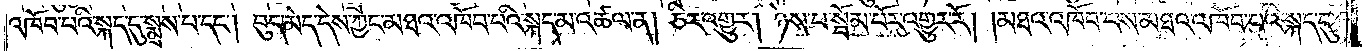འཁོབ་པའི་སྐད་དུ་སྨྲས་པ་དང༌། བུད་མེད་དེས་ཀྱང་མཐའ་འཁོབ་པའི་སྐད་མ་འཚལ་ན། ཅིར་འགྱུར། ཉེས་པ་སྦོམ་པོར་འགྱུར་རོ། །མཐའ་འཁོབ་པས་མཐའ་འཁོབ་པའི་སྐད་དུ་
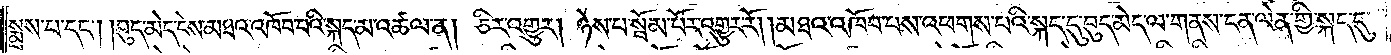སྨྲས་པ་དང༌། བུད་མེད་ངེས་མཐའ་འཁོབ་པའི་སྐད་མ་འཚལ་ན། ཅིར་འགྱུར། ཉེས་པ་སྦོམ་པོར་འགྱུར་རོ། །མཐའ་འཁོབ་པས་འཕགས་པའི་སྐད་དུ་བུད་མེད་ལ་གནས་ངན་ལེན་གྱི་སྐད་དུ་
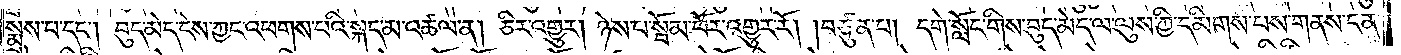སྨྲས་པ་དང༌། བུད་མེད་ངེས་ཀྱང་འཕགས་པའི་སྐད་མ་འཚལ་ན། ཅིར་འགྱུར། ཉེས་པ་སྦོམ་པོར་འགྱུར་རོ། །བཙུན་པ། དགེ་སློང་གིས་བུད་མེད་ལ་ལུས་ཀྱི་དམིགས་པས་གནས་ངན་
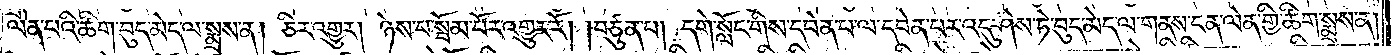ལེན་པའི་ཚིག་བུད་མེད་ལ་སྨྲས་ན། ཅིར་འགྱུར། ཉེས་པ་སྦོམ་པོར་འགྱུར་རོ། །བཙུན་པ། དགེ་སློང་གིས་དབེན་པ་ལ་དབེན་པར་འདུ་ཤེས་ཏེ་བུད་མེད་ལ་གནས་ངན་ལེན་གྱི་ཚིག་སྨྲས་ན།
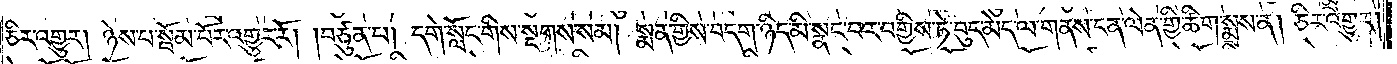ཅིར་འགྱུར། ཉེས་པ་སྦོམ་པོར་འགྱུར་རོ། །བཙུན་པ། དགེ་སློང་གིས་སྔགས་སམ། སྨན་གྱིས་བདག་ཉིད་མི་སྣང་བར་བགྱིས་ཏེ་བུད་མེད་ལ་གནས་ངན་ལེན་གྱི་ཚིག་སྨྲས་ན། ཅིར་འགྱུར་
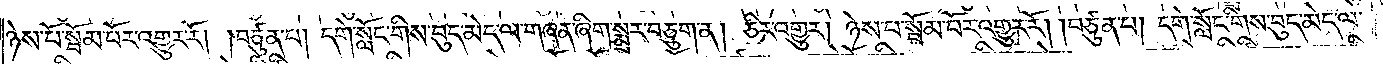ཉེས་པོ་སྦོམ་པོར་འགྱུར་རོ། །བཙུན་པ། དགེ་སློང་གིས་བུད་མེད་ལ་གཞན་ཞིག་སྨྲར་བཅུག་ན། ཅིར་འགྱུར། ཉེས་པ་སྦོམ་པོར་འགྱུར་རོ། །བཙུན་པ། དགེ་སློང་གིས་བུད་མེད་ལ་
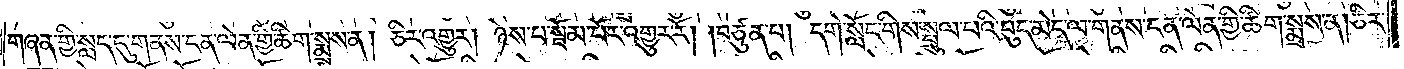གཞན་གྱི་སླད་དུ་གནས་ངན་ལེན་གྱི་ཚིག་སྨྲས་ན། ཅིར་འགྱུར། ཉེས་པ་སྦོམ་པོར་འགྱུར་རོ། །བཙུན་པ། དགེ་སློང་གིས་སྤྲུལ་པའི་བུད་མེད་ལ་གནས་ངན་ལེན་གྱི་ཚིག་སྨྲས་ན། ཅིར་
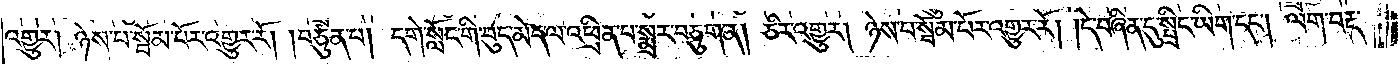འགྱུར། ཉེས་པ་སྦོམ་པོར་འགྱུར་རོ། །བཙུན་པ། དགེ་སློང་གི་བུད་མེད་ལ་འཕྲིན་པ་སྨྲར་བཅུག་ན། ཅིར་འགྱུར། ཉེས་པ་སྦོམ་པོར་འགྱུར་རོ། །དེ་བཞིན་དུ་སྤྲིང་ཡིག་དང༌། ལག་བརྡ་
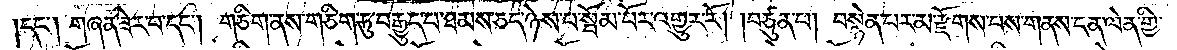དང༌། གཞན་ཟེར་བ་དང༌། གཅིག་ནས་གཅིག་ཏུ་བརྒྱུད་པ་ཐམས་ཅད་ཉེས་པ་སྦོམ་པོར་འགྱུར་རོ། །བཙུན་པ། བསྙེན་པར་མ་རྫོགས་པས་གནས་ངན་ལེན་གྱི་
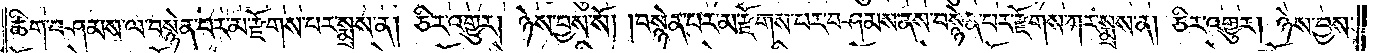ཚིག་བཤམས་ལ་བསྙེན་པར་མ་རྫོགས་པར་སྨྲས་ན། ཅིར་འགྱུར། ཉེས་བྱས་སོ། །བསྙེན་པར་མ་རྫོགས་པར་བཤམས་ནས་བསྙེན་པར་རྫོགས་ཀར་སྨྲས་ན། ཅིར་འགྱུར། ཉེས་བྱས་
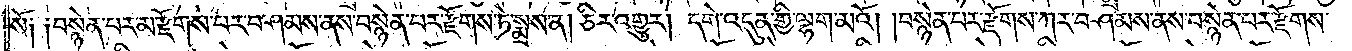སོ༑ ༑བསྙེན་པར་མ་རྫོགས་པར་བཤམས་ནས་བསྙེན་པར་རྫོགས་ཏེ་སྨྲས་ན། ཅིར་འགྱུར། དགེ་འདུན་གྱི་ལྷག་མའོ། །བསྙེན་པར་རྫོགས་ཀར་བཤམས་ནས་བསྙེན་པར་རྫོགས་
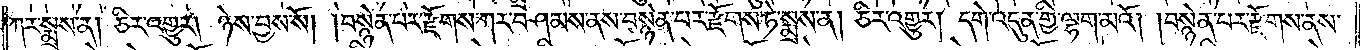ཀར་སྨྲས་ན། ཅིར་འགྱུར། ཉེས་བྱས་སོ། །བསྙེན་པར་རྫོགས་ཀར་བཤམས་ནས་བསྙེན་པར་རྫོགས་ཏེ་སྨྲས་ན། ཅིར་འགྱུར། དགེ་འདུན་གྱི་ལྷག་མའོ། །བསྙེན་པར་རྫོགས་ནས་
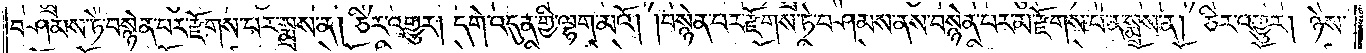བཤམས་ཏེ་བསྙེན་པར་རྫོགས་པར་སྨྲས་ན། ཅིར་འགྱུར། དགེ་འདུན་གྱི་ལྷག་མའོ། །བསྙེན་པར་རྫོགས་ཏེ་བཤམས་ནས་བསྙེན་པར་མ་རྫོགས་པ་ན་སྨྲས་ན། ཅིར་འགྱུར། ཉེས་
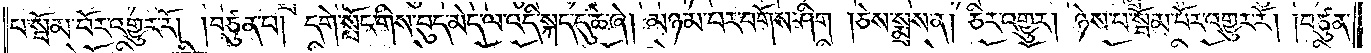པ་སྦོམ་པོར་འགྱུར་རོ། །བཙུན་པ། དགེ་སློང་གིས་བུད་མེད་ལ་འདི་སྐད་དུ་ཆེ་ཞེ། མཉམ་པར་བགོས་ཤིག །ཅེས་སྨྲས་ན། ཅིར་འགྱུར། ཉེས་པ་སྦོམ་པོར་འགྱུར་རོ། །བཙུན་
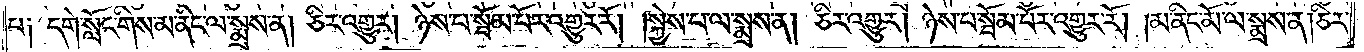པ༑ དགེ་སློང་གིས་མ་ནིང་ལ་སྨྲས་ན། ཅིར་འགྱུར། ཉེས་པ་སྦོམ་པོར་འགྱུར་རོ། །སྐྱེས་པ་ལ་སྨྲས་ན། ཅིར་འགྱུར། ཉེས་པ་སྦོམ་པོར་འགྱུར་རོ། །མ་ནིང་མོ་ལ་སྨྲས་ན། ཅིར་
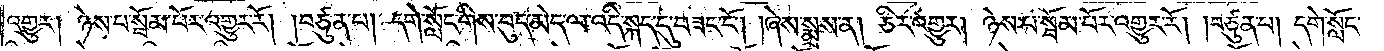འགྱུར། ཉེས་པ་སྦོམ་པོར་འགྱུར་རོ། །བཙུན་པ། དགེ་སློང་གིས་བུད་མེད་ལ་འདི་སྐད་དུ་བཟང་ངོ༌། །ཞེས་སྨྲས་ན། ཅིར་འགྱུར། ཉེས་པ་སྦོམ་པོར་འགྱུར་རོ། །བཙུན་པ། དགེ་སློང་
